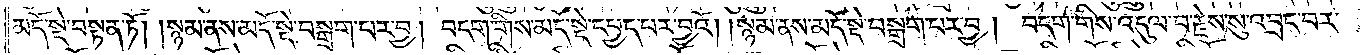མདོ་སྡེ་བསྟན་ཏོ། །སྙམ་ནས་མདོ་སྡེ་བསྒྲག་པར་བྱ། བདག་གིས་མདོ་སྡེ་དཔྱད་པར་བྱའོ། །སྙམ་ནས་མདོ་སྡེ་བསྒྲག་པར་བྱ། །བདག་གིས་འདུལ་བ་རྗེས་སུ་འབྲང་བར་
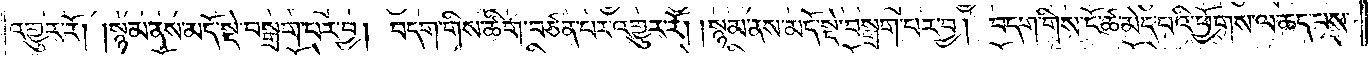འགྱུར་རོ། །སྙམ་ནས་མདོ་སྡེ་བསྒྲག་པར་བྱ། བདག་གིས་ཚིག་བཙན་པར་འགྱུར་རོ། །སྙམ་ནས་མདོ་སྡེ་བསྒྲག་པར་བྱ། བདག་གིས་ངོ་ཚ་མེད་པའི་ཕྱོགས་ལ་ཆད་པས་
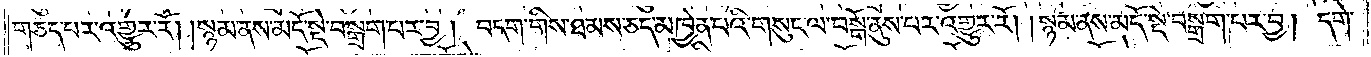གཅད་པར་འགྱུར་རོ། །སྙམ་ནས་མདོ་སྡེ་བསྒྲག་པར་བྱ། བདག་གིས་ཐམས་ཅད་མཁྱེན་པའི་གསུང་ལ་བསྒོ་ནུས་པར་འགྱུར་རོ། །སྙམ་ནས་མདོ་སྡེ་བསྒྲག་པར་བྱ། དགེ་
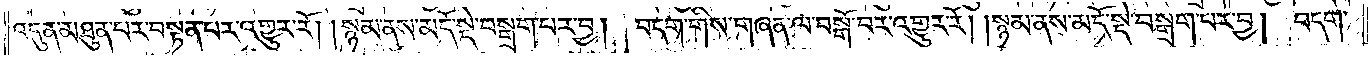འདུན་མཐུན་པར་བསྟན་པར་འགྱུར་རོ། །སྙམ་ནས་མདོ་སྡེ་བསྒྲག་པར་བྱ། བདག་གིས་གཞན་ལ་བསྒོ་བར་འགྱུར་རོ། །སྙམ་ནས་མདོ་སྡེ་བསྒྲག་པར་བྱ། བདག་
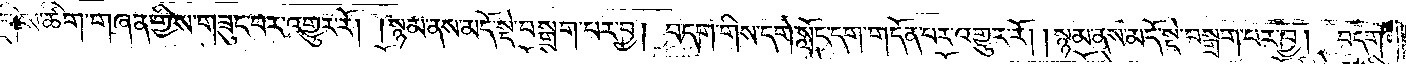གིས་ཚིག་གཞན་གྱིས་གཟུང་བར་འགྱུར་རོ། །སྙམ་ནས་མདོ་སྡེ་བསྒྲག་པར་བྱ། བདག་གིས་དགེ་སློང་དག་གདོན་པར་འགྱུར་རོ། སྙམ་ནས་མདོ་སྡེ་བསྒྲག་པར་བྱ། བདག་
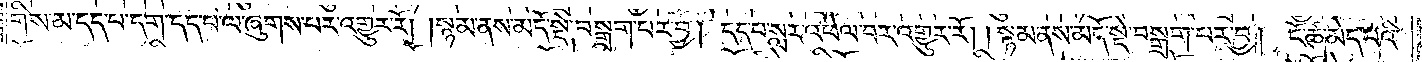གིས་མ་དད་པ་དག་དད་པ་ལ་ཞུགས་པར་འགྱུར་རོ། །སྙམ་ནས་མདོ་སྡེ་བསྒྲག་པར་བྱ། དད་པ་སླར་འཕེལ་བར་འགྱུར་རོ། །སྙམ་ནས་མདོ་སྡེ་བསྒྲག་པར་བྱ། ངོ་ཚ་མེད་པའི་
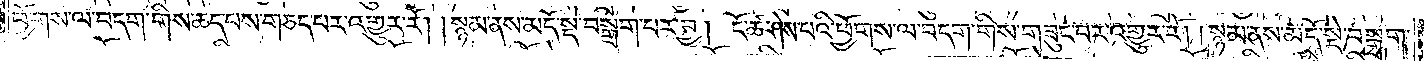ཕྱོགས་ལ་བདག་གིས་ཆད་པས་གཅད་པར་འགྱུར་རོ། །སྙམ་ནས་མདོ་སྡེ་བསྒྲག་པར་བྱ། ངོ་ཚ་ཤེས་པའི་ཕྱོགས་ལ་བདག་གིས་གཟུང་བར་འགྱུར་རོ། །སྙམ་ནས་མདོ་སྡེ་བསྒྲག་
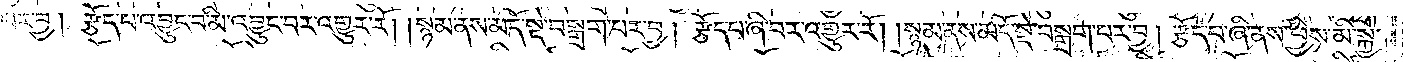པར་བྱ། རྩོད་པ་འབྱུང་བ་མི་འབྱུང་བར་འགྱུར་རོ། །སྙམ་ནས་མདོ་སྡེ་བསྒྲག་པར་བྱ། རྩོད་པ་ཞི་བར་འགྱུར་རོ། །སྙམ་ནས་མདོ་སྡེ་བསྒྲག་པར་བྱ། རྩོད་པ་ཞི་ནས་ཕྱིས་མི་སྐྱེ་
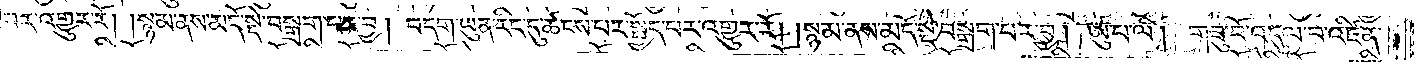བར་འགྱུར་རོ། །སྙམ་ནས་མདོ་སྡེ་བསྒྲག་པར་བྱ། བདག་ཡུན་རིང་དུ་ཚངས་པར་སྤྱོད་པར་འགྱུར་རོ། །སྙམ་ནས་མདོ་སྡེ་བསྒྲག་པར་བྱ། ཨུ་པ་ལི། གཟུ་བོ་འདུལ་བ་འཛིན་
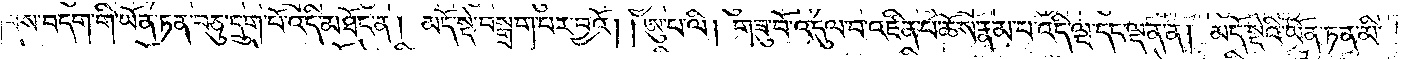པས་བདག་གི་ཡོན་ཏན་བཅུ་དྲུག་པོ་འདི་མཐོང་ན། མདོ་སྡེ་བསྒྲག་པར་བྱའོ། །ཨུ་པ་ལི། གཟུ་བོ་འདུལ་བ་འཛིན་པ་ཆོས་རྣམ་པ་འདི་ལྔ་དང་ལྡན་ན། མདོ་སྡེའི་ཡོན་ཏན་མི་
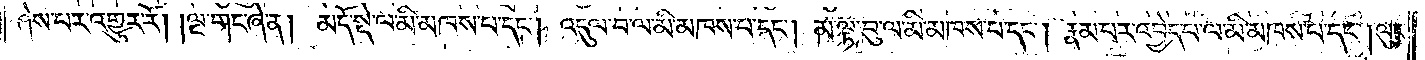ཤེས་པར་འགྱུར་རོ། །ལྔ་གང་ཞེ་ན། མདོ་སྡེ་ལ་མི་མཁས་པ་དང༌། འདུལ་བ་ལ་མི་མཁས་པ་དང༌། མ་ལྟ་བུ་ལ་མི་མཁས་པ་དང༌། རྣམ་པར་འབྱེད་པ་ལ་མི་མཁས་པ་དང༌། ལུང་
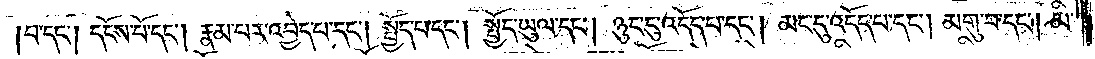བ་དང༌། དངོས་པོ་དང༌། རྣམ་པར་འབྱེད་པ་དང༌། སྤྱོད་པ་དང༌། སྤྱོད་ཡུལ་དང༌། ཉུང་ངུ་འདོད་པ་དང༌། མང་དུ་འདོད་པ་དང༌། མགུ་བ་དང༌། མི་
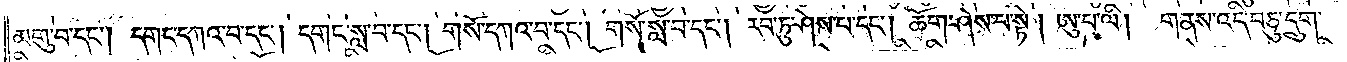མགུ་བ་དང༌། དགང་དཀའ་བ་དང༌། དགང་སླ་བ་དང༌། གསོ་དཀའ་བ་དང༌། གསོ་སླ་བ་དང༌། རབ་ཏུ་ཤེས་པ་དང༌། ཆོག་ཤེས་པ་སྟེ། ཨུ་པ་ལི། གནས་འདི་བཅུ་དྲུག་
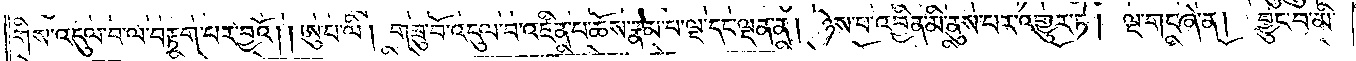གིས་འདུལ་བ་ལ་བརྟག་པར་བྱའོ། །ཨུ་པ་ལི། གཟུ་བོ་འདུལ་བ་འཛིན་པ་ཆོས་རྣམ་པ་ལྔ་དང་ལྡན་ན། ཉེས་པ་འབྱིན་མི་ནུས་པར་གྱུར་ཏེ། ལྔ་གང་ཞེ་ན། བྱུང་བ་མི་
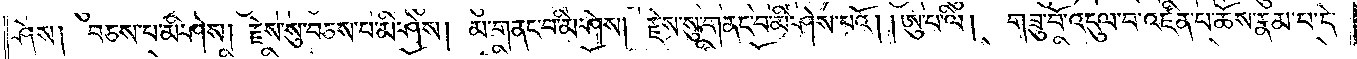ཤེས། བཅས་པ་མི་ཤེས། རྗེས་སུ་བཅས་པ་མི་ཤེས། མ་གནང་བ་མི་ཤེས། རྗེས་སུ་གནང་བ་མི་ཤེས་པའོ། །ཨུ་པ་ལི། གཟུ་བོ་འདུལ་བ་འཛིན་པ་ཆོས་རྣམ་པ་དེ་
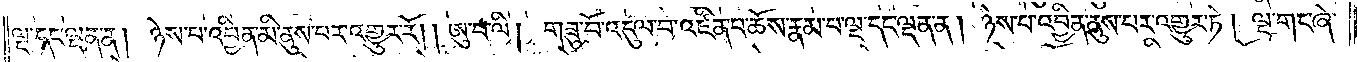ལྔ་དང་ལྡན་ན། ཉེས་པ་འབྱིན་མི་ནུས་པར་འགྱུར་རོ། །ཨུ་པ་ལི། གཟུ་བོ་འདུལ་པ་འཛི་པ་ཆོས་རྣམ་པ་ལྔ་དང་ལྡན་ན། ཉེས་པ་འབྱིན་ནུས་པར་འགྱུར་ཏེ། ལྔ་གང་ཞེ་
